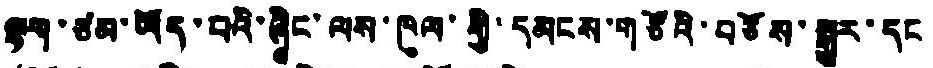ལྷག་ཙམ་ཡོད་པའི་ཞིང་ལས་ཁུལ་གྱི་དམངས་གཙོའི་བཅོས་སྒྱུར་དང
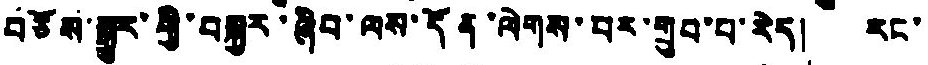བཙོས་སྒྱུར་གྱི་བསྐྱར་ཞིབ་ལས་དོན་ལེགས་བར་གྲུབ་པ་རེད། རང་
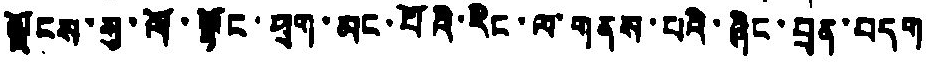ལྗོངས་སུ་ལོ་སྟོང་ཕྲག་མང་པོའི་རིང་ལ་གནས་པའི་ཞིང་བྲན་བདག
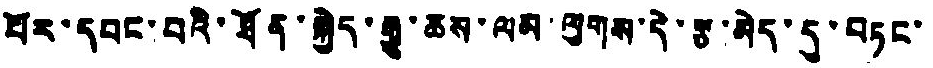པོར་དབང་བའི་ཐོན་སྐྱེད་རྒྱུ་ཆས་ལམ་ལུགས་དེ་རྩ་མེད་དུ་བཏང་
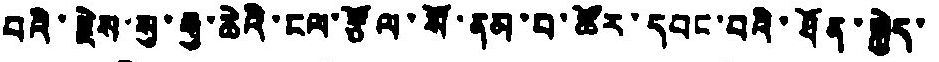བའི་རྗེས་སུ་རྒྱ་ཆེའི་ངལ་རྩོལ་སོ་ནམ་པ་ཚོར་དབང་བའི་ཐོན་སྐྱེད་
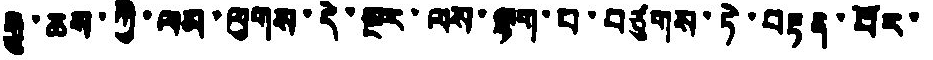རྒྱུ་ཆས་ཀྱི་ལམ་ལུགས་དེ་སྔར་ལས་ལྷག་པ་བཙུགས་ཏེ་བརྟན་པོར་
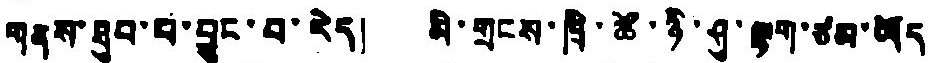གནས་ཐུབ་པ་བྱུང་བ་རེད། མི་གྲངས་ཁྲི་ཚོ་ཉི་ཤུ་ལྟག་ཙམ་ཡོད
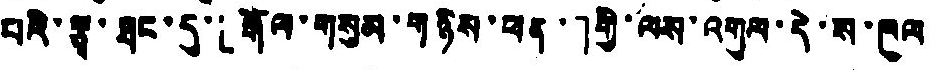པའི་རྩྭ་ཐང་དུ་「རྒོལ་གསུམ་གཉིས་ཕན་」གྱི་ལས་འགུལ་དེ་ས་ཁུལ
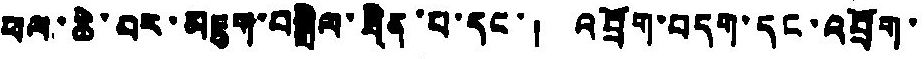ཕལ་ཆེ་བར་མཇུག་བསྒྲིལ་ཟིན་པ་དང་། འབྲོག་བདག་དང་འབྲོག་
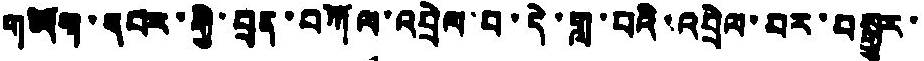གཡོག་དབར་གྱི་བྲན་བཀོལ་འབྲེལ་བ་དེ་གླ་བའི་འབྲེལ་བར་བསྒྱུར་
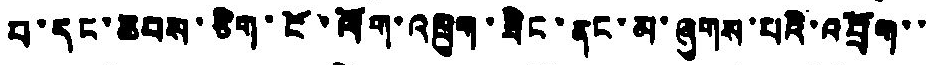བ་དང་ཆབས་ཅིག་ངོ་ལོག་འཁྲུག་ཟིང་ནང་མ་ཞུགས་པའི་འབྲོག་་
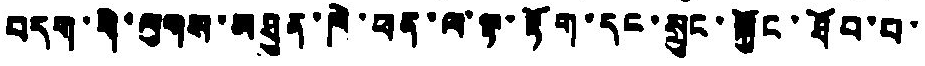བདག་གི་ལུགས་མཐུན་ཁེ་ཕན་ལ་ལྟ་རྟོག་དང་སྲུང་སྐྱོང་ཐོབ་པ་
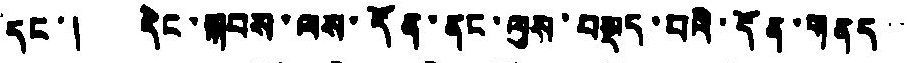དང་། དིང་སྐབས་ལས་དོན་ནང་ལུས་བསྡད་པའི་དོན་གནད་་
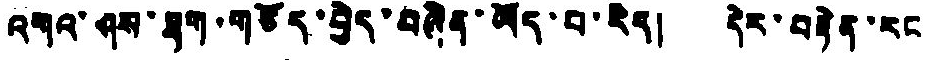འགའ་ཤས་ཐག་གཅོད་བྱེད་བཞིན་ཡོད་པ་རེད། དེར་བརྟེན་རང
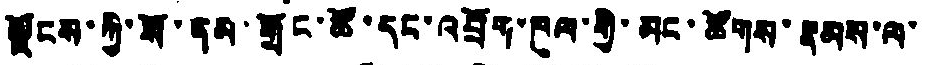ལྗོངས་ཀྱི་སོ་ནམ་གྲོང་ཚོ་དང་འབྲོག་ཁུལ་གྱི་མང་ཚོགས་རྣམས་ལ་
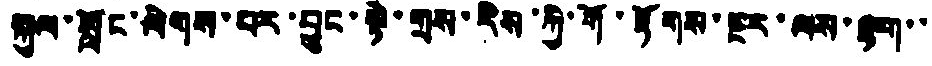སྐུལ་སློང་ལེགས་པར་བྱུང་སྟེ་གྲས་རིས་ཀྱི་གོ་རྟོགས་སྔར་ལས་ལྷག་་
